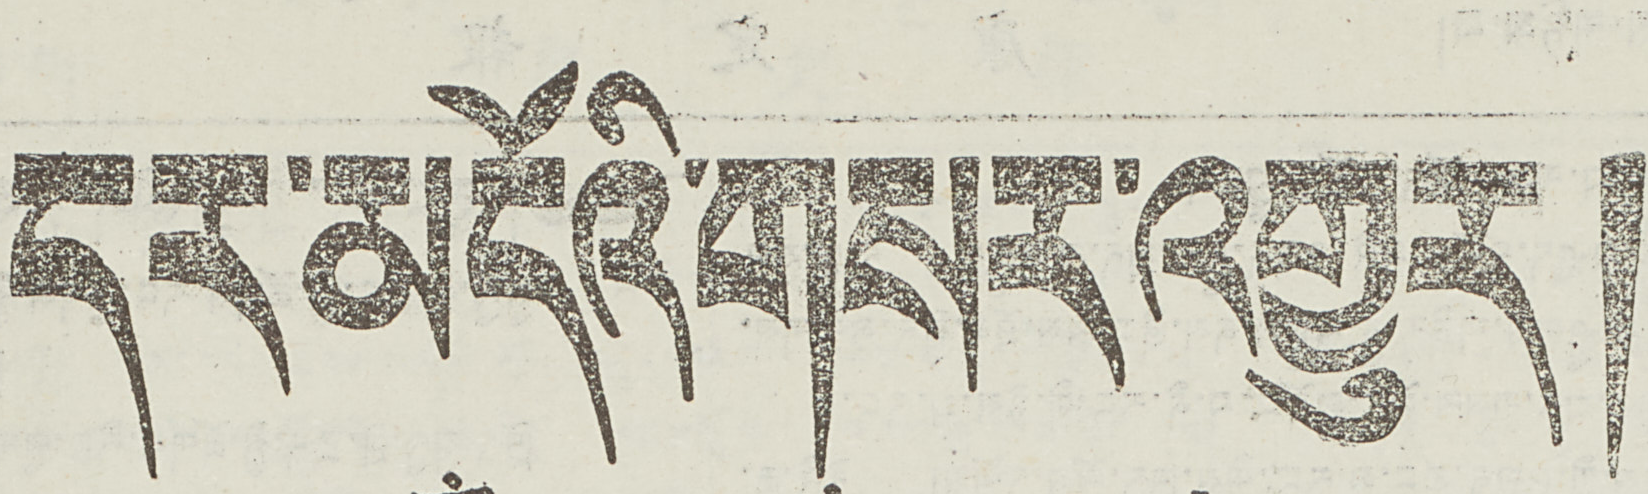དར་མདོའི་གསར་འགྱུར།
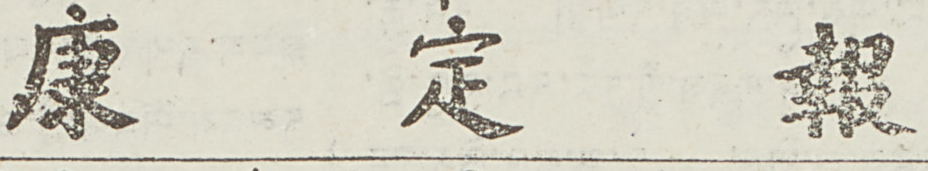康 定 報
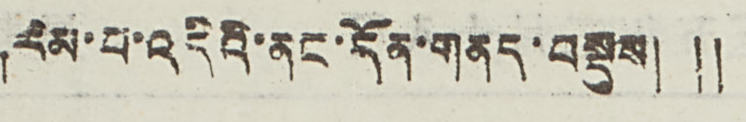།རིམ་པ་འདིའི་ནང་དོན་གནད་བསྡུས། ༎
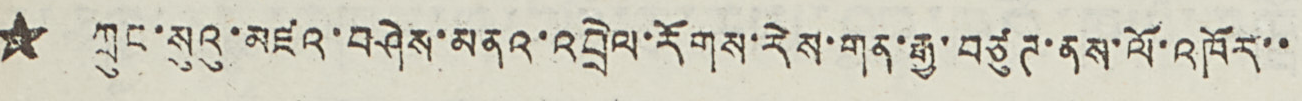★ ཀྲུང་སུའུ་མཛའ་བཤེས་མནའ་འབྲེལ་རོགས་རེས་གན་རྒྱ་བཙུཊ་ནས་ལོ་འཁོར་་
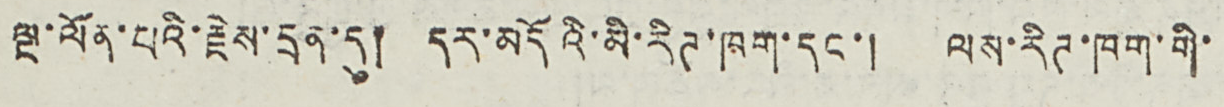ལྔ་ལོན་པའི་རྗེས་དྲན་དུ། དར་མདོའི་མི་རིཊ་ཁག་དང་། ལས་རིཊ་ཁག་གི་
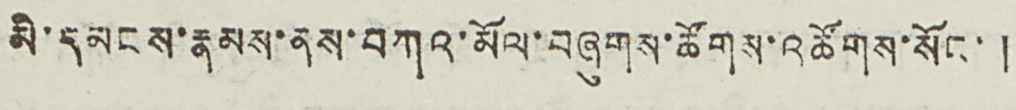མི་དམངས་རྣམས་ནས་བཀའ་མོལ་བཞུགས་ཚོགས་འཚོགས་སོང་།
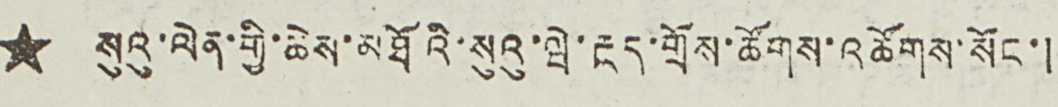★ སུའུ་ལེན་གྱི་ཆེས་མཐོའི་སུའུ་ཝེ་རྔད་གྲོས་ཚོགས་འཚོགས་སོང་།
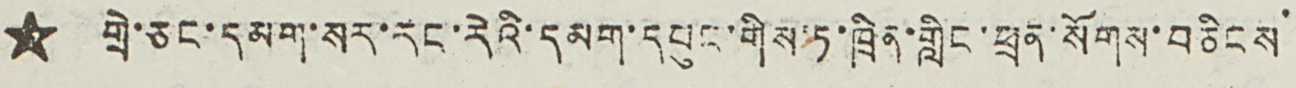★ གྲེ་ཅང་དམག་སར་རང་རེའི་དམག་དཔུང་གིས་ཏ་ཁྲིན་གླིང་ཕྲན་སོགས་བཅིངས་
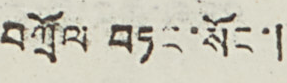བཀྲོལ བཏང་སོང་།
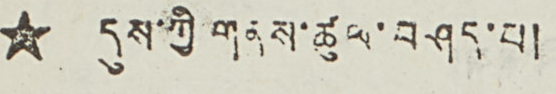★ དུས་ཀྱི གནས་ཚུལ་བཤད་པ།
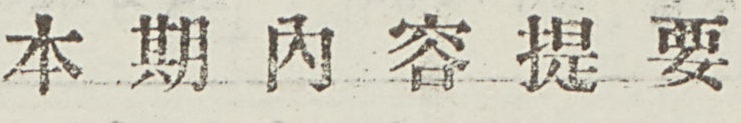本 期 內 容 提 要
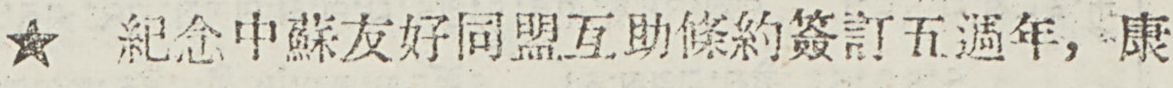★ 紀念中蘇友好同盟互助條約簽訂五週年，康
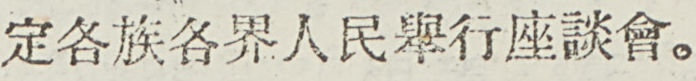定各族各界人民舉行座談會。
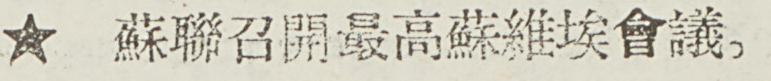★ 蘇聯召開最高蘇維埃會議。
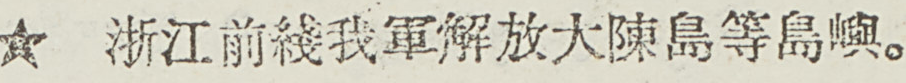★ 浙江前綫我軍解放大陳島等島嶼。
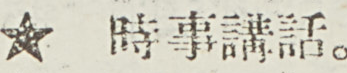★ 事實講話。
